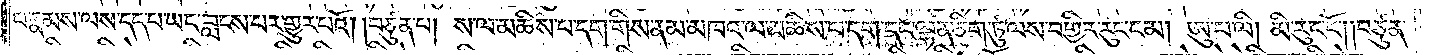པ་རྣམས་ལས་དད་པ་ཡང་བླངས་པར་གྱུར་པའོ། །བཙུན་པ། ས་ལ་མཆིས་པ་དག་གིས་ནམ་མཁའ་ལ་མཆིས་པ་དག་དང་ལྷན་ཅིག་ཏུ་ལས་བགྱིར་རུང་ངམ། ཨུ་པ་ལི། མི་རུང་ངོ༌། །བཙུན་
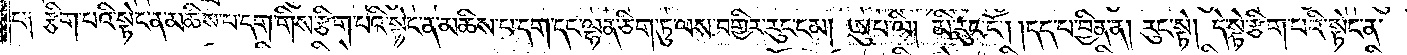པ། རྩིག་པའི་སྟེང་ན་མཆིས་པ་དག་གིས་རྩིག་པའི་སྟེང་ན་མཆིས་པ་དག་དང་ལྷན་ཅིག་ཏུ་ལས་བགྱིར་རུང་ངམ། ཨུ་པ་ལི། མི་རུང་ངོ༌། །དད་པ་བྱིན་ན། རུང་སྟེ། དེ་སྟེ་རྩིག་པའི་སྟེང་ན་
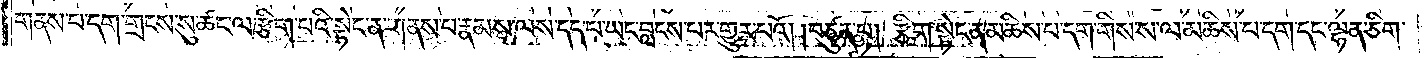གནས་པ་དག་གྲངས་སུ་ཚང་ལ་རྩིག་པའི་སྟེང་ན་གནས་པ་རྣམས་ལས་དད་པ་ཡང་བླངས་པར་གྱུར་པའོ། །བཙུན་པ། རྩིག་སྟེང་ན་མཆིས་པ་དག་གིས་ས་ལ་མཆིས་པ་དག་དང་ལྷན་ཅིག་
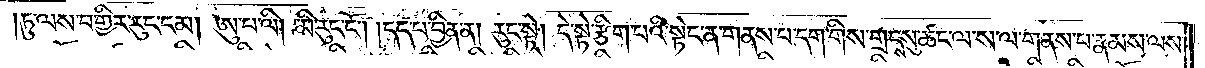ཏུ་ལས་བགྱིར་རུང་ངམ། ཨུ་པ་ལི། མི་རུང་ངོ༌། །དད་པ་བྱིན་ན། རུང་སྟེ། དེ་སྟེ་རྩིག་པའི་སྟེང་ན་གནས་པ་དག་གིས་གྲངས་སུ་ཚང་ལ་ས་ལ་གནས་པ་རྣམས་ལས་
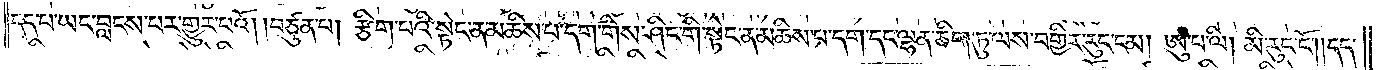དད་པ་ཡང་བླངས་པར་གྱུར་པའོ། །བཙུན་པ། རྩིག་པའི་སྟེང་ན་མཆིས་པ་དག་གིས་ཤིང་གི་སྟེང་ན་མཆིས་པ་དག་དང་ལྷན་ཅིག་ཏུ་ལས་བགྱིར་རུང་ངམ། ཨུ་པ་ལི། མི་རུང་ངོ༌། །དད་
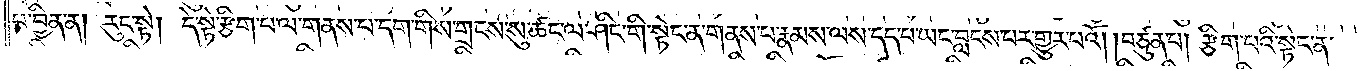པ་བྱིན་ན། རུང་སྟེ། དེ་སྟེ་རྩིག་པ་ལ་གནས་པ་དག་གིས་གྲངས་སུ་ཚང་ལ་ཤིང་གི་སྟེང་ན་གནས་པ་རྣམས་ལས་དད་པ་ཡང་བླངས་པར་གྱུར་པའོ། །བཙུན་པ། རྩིག་པའི་སྟེང་ན་
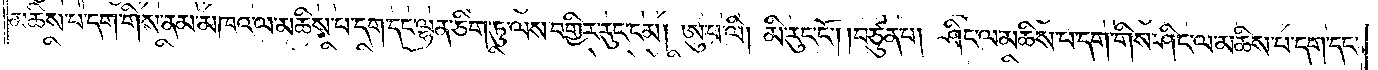མཆིས་པ་དག་གིས་ནམ་མཁའ་ལ་མཆིས་པ་དག་དང་ལྷན་ཅིག་ཏུ་ལས་བགྱིར་རུང་ངམ། ཨུ་པ་ལི། མི་རུང་ངོ༌། །བཙུན་པ། ཤིང་ལ་མཆིས་པ་དག་གིས་ཤིང་ལ་མཆིས་པ་དག་དང་
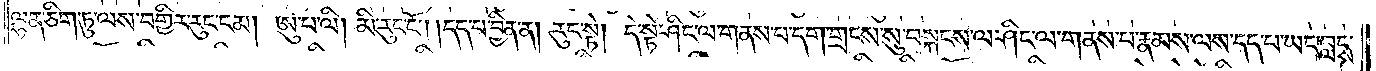ལྷན་ཅིག་ཏུ་ལས་བགྱིར་རུང་ངམ། ཨུ་པ་ལི། མི་རུང་ངོ༌། །དད་པ་བྱིན་ན། རུང་སྟེ། དེ་སྟེ་ཤིང་ལ་གནས་པ་དག་གྲངས་སུ་བསྐངས་ལ་ཤིང་ལ་གནས་པ་རྣམས་ལས་དད་པ་ཡང་བླངས་
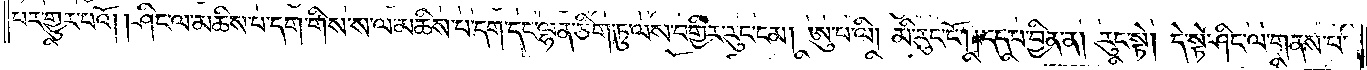པར་གྱུར་པའོ། །ཤིང་ལ་མཆིས་པ་དག་གིས་ས་ལ་མཆིས་པ་དག་དང་ལྷན་ཅིག་ཏུ་ལས་བགྱིར་རུང་ངམ། ཨུ་པ་ལི། མི་རུང་ངོ༌། །དད་པ་བྱིན་ན། རུང་སྟེ། དེ་སྟེ་ཤིང་ལ་གནས་པ་
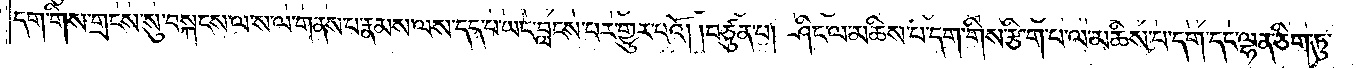དག་གིས་གྲངས་སུ་བསྐངས་ལ་ས་ལ་གནས་པ་རྣམས་ལས་དད་པ་ཡང་བླངས་པར་གྱུར་པའོ། །བཙུན་པ། ཤིང་ལ་མཆིས་པ་དག་གིས་རྩིག་པ་ལ་མཆིས་པ་དག་དང་ལྷན་ཅིག་ཏུ་
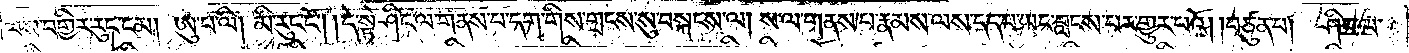ལས་བགྱིར་རུང་ངམ། ཨུ་པ་ལི། མི་རུང་ངོ༌། །དེ་སྟེ་ཤིང་ལས་གནས་པ་དག་གིས་གྲངས་སུ་བསྐངས་ལ། ས་ལ་གནས་པ་རྣམས་ལས་དད་པ་ཡང་བླངས་པར་གྱུར་པའོ། །བཙུན་པ། ཤིང་ལ་
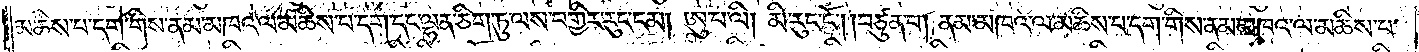མཆིས་པ་དག་གིས་ནམ་མཁའ་ལ་མཆིས་པ་དག་དང་ལྷན་ཅིག་ཏུ་ལས་བགྱིར་རུང་ངམ། ཨུ་པ་ལི། མི་རུང་ངོ༌། །བཙུན་པ། ནམ་མཁའ་ལ་མཆིས་པ་དག་གིས་ནམ་མཁའ་ལ་མཆིས་པ་
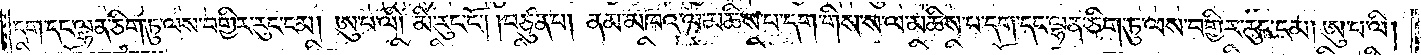དག་དང་ལྷན་ཅིག་ཏུ་ལས་བགྱིར་རུང་ངམ། ཨུ་པ་ལི། མི་རུང་ངོ༌། །བཙུན་པ། ནམ་མཁའ་ལ་མཆིས་པ་དག་གིས་ས་ལ་མཆིས་པ་དག་དང་ལྷན་ཅིག་ཏུ་ལས་བགྱིར་རུང་ངམ། ཨུ་པ་ལི།
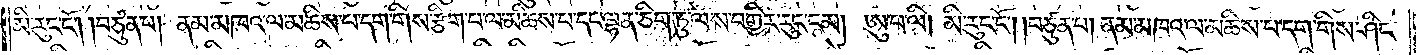མི་རུང་ངོ༌། །བཙུན་པ། ནམ་མཁའ་ལ་མཆིས་པ་དག་གིས་རྩིག་པ་ལ་མཆིས་པ་དང་ལྷན་ཅིག་ཏུ་ལས་བགྱིར་རུང་ངམ། ཨུ་པ་ལི། མི་རུང་ངོ༌། །བཙུན་པ། ནམ་མཁའ་ལ་མཆིས་པ་དག་གིས་ཤིང་
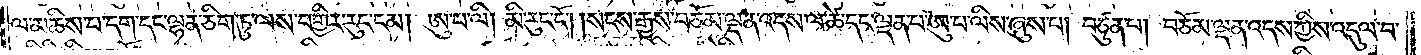ལ་མཆིས་པ་དག་དང་ལྷན་ཅིག་ཏུ་ལས་བགྱིར་རུང་ངམ། ཨུ་པ་ལི། མི་རུང་ངོ༌། །སངས་རྒྱས་བཅོམ་ལྡན་འདས་ལ་ཚེ་དང་ལྡན་པ་ཨུ་པ་ལིས་ཞུས་པ། བཙུན་པ། བཅོམ་ལྡན་འདས་ཀྱིས་འདུལ་བ་
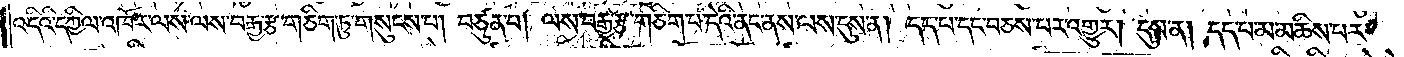འདིའི་དཀྱིལ་འཁོར་ལས་ལས་བརྒྱ་རྩ་གཅིག་ཏུ་གསུངས་པ། བཙུན་པ། ལས་བརྒྱ་རྩ་གཅིག་པ་དེའི་ནང་ནས་ལས་དུས་ན། དད་པ་དང་བཅས་པར་འགྱུར། དུས་ན། དད་པ་མ་མཆིས་པར་
